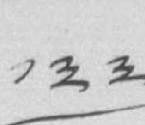༡༣༣
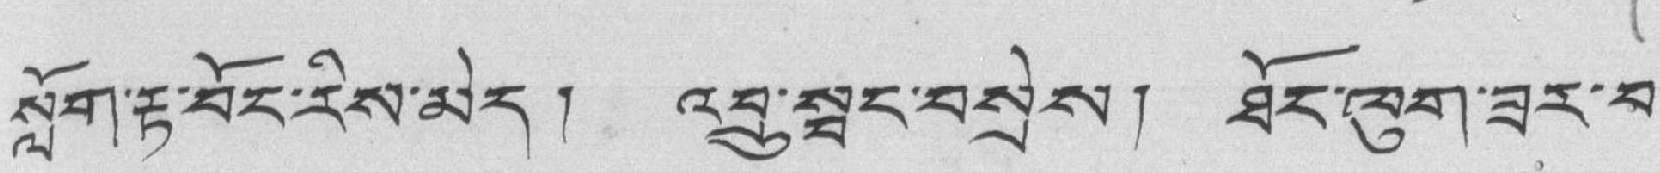སློག་རྟ་བོང་རིས་མེད། འབྲུ་སྦང་བསྲེས། ཐོང་ཁུག་ཟེར་བ་
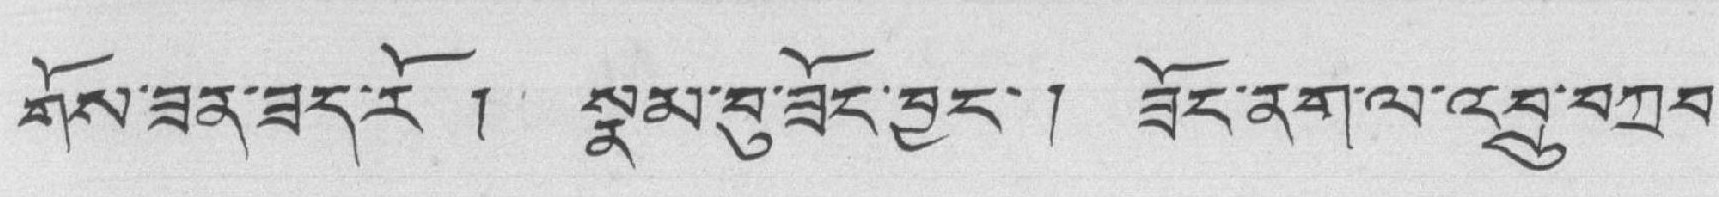གོས་ཟན་ཟད་རོ ། སྣམ་བུ་ཟོང་བྱང་ ། ཟོང་ནག་ལ་འབྲུ་བཀྲབ་
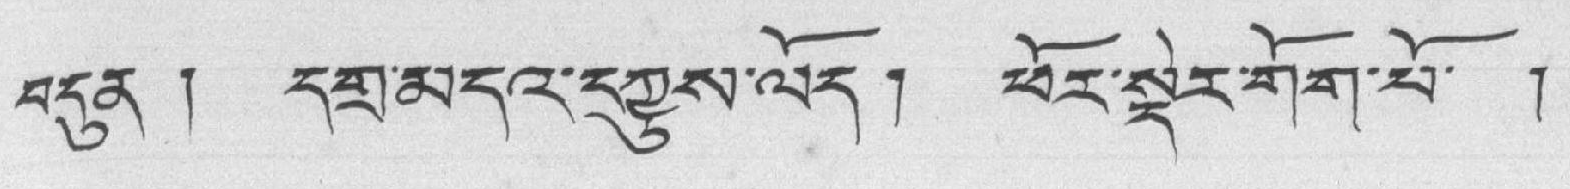བདུན ། དགྲ་མདའ་དཀྱུས་ལོད། ཕོར་སྡེར་གོག་པོ་ །
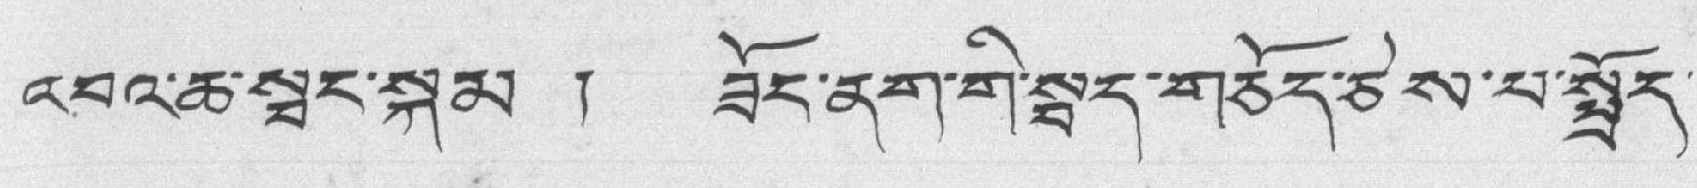འབའ་ཆ་སྦང་སྐམ ། ཟོང་ནག་གི་སྦད་གཅོད་ཅེས་པ་སྤྲོད་
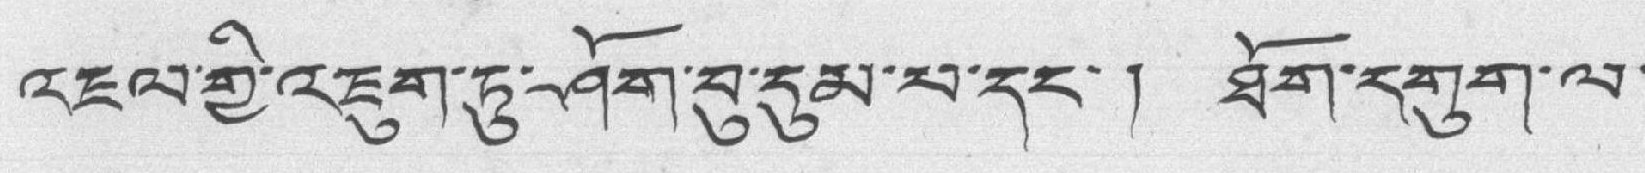འཇལ་གྱི་འཇུག་ཏུ་ཤོག་བུ་དུམ་པ་དང་། ཐོག་དགུག་ལ་
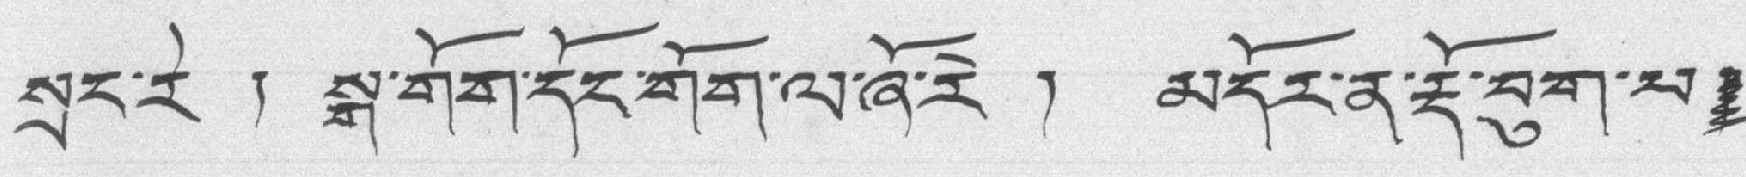སྲང་རེ ། སྒ་གོག་དོང་གོག་ལ་ཞོ་རེ ། མདོར་ན་རྡོ་བུག་པ་།
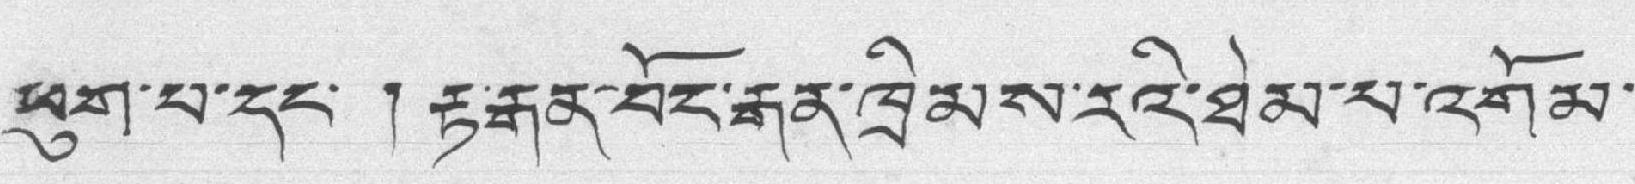ཕུག་པ་དང་ ། རྟ་རྒན་བོང་རྒན་ཁྲིམས་རའི་ཐེམ་པ་འགོམ་
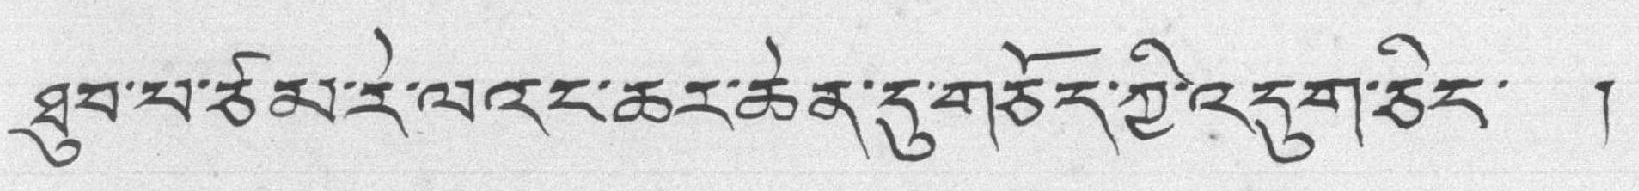ཐུབ་པ་ཙམ་རེ་ལའང་ཆར་ཆེན་དུ་གཅོད་ཀྱི་འདུག་ཅིང་ །
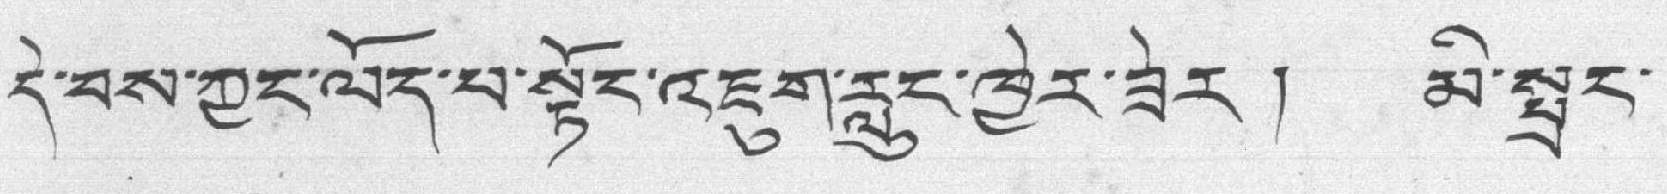དེ་བས་ཀྱང་ལོད་པ་སྟོང་འཇུག་རླུང་ཁྱེར་ཟེར། མི་སྤྲང་
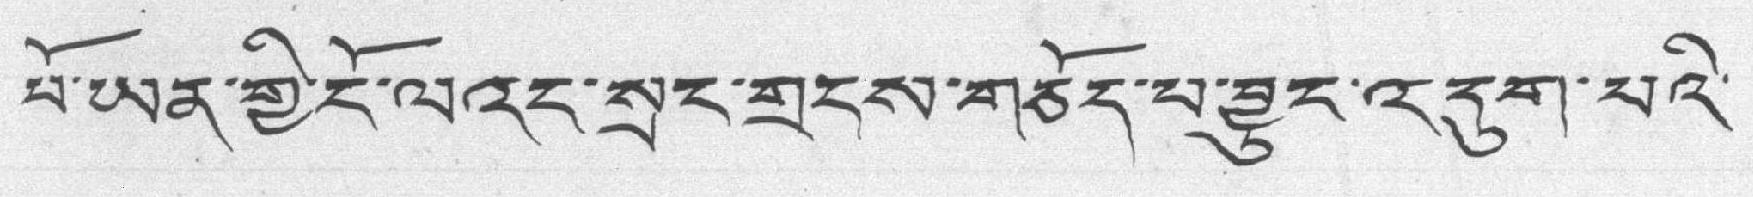པོ་ཡིན་གྱི་ངོ་ལའང་སྲང་གྲངས་གཅོད་པ་བྱུང་འདུག་པའི་
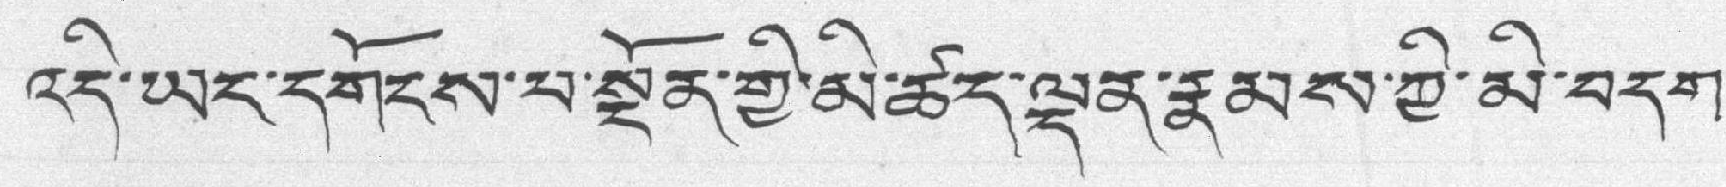འདི་ཡང་དགོངས་པ་སྔོན་གྱི་མི་ཚད་ལྡན་རྣམས་ཀྱི་མི་བདག་
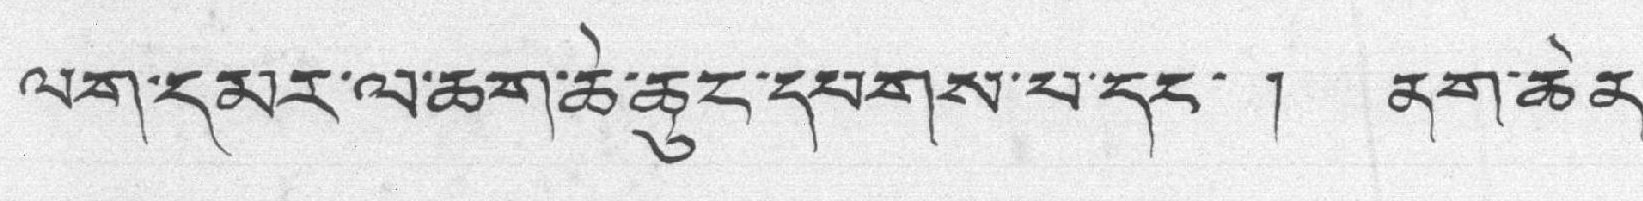ལག་དམར་ལ་ཆག་ཆེ་ཆུང་དཔགས་པ་དང་ ། ནག་ཆེན་
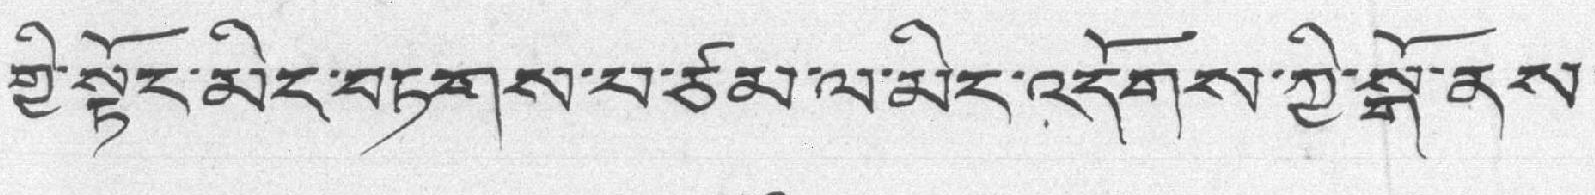གྱི་སྟོང་མིང་བཏགས་པ་ཙམ་ལ་མིང་འདོགས་ཀྱི་སྒོ་ནས་
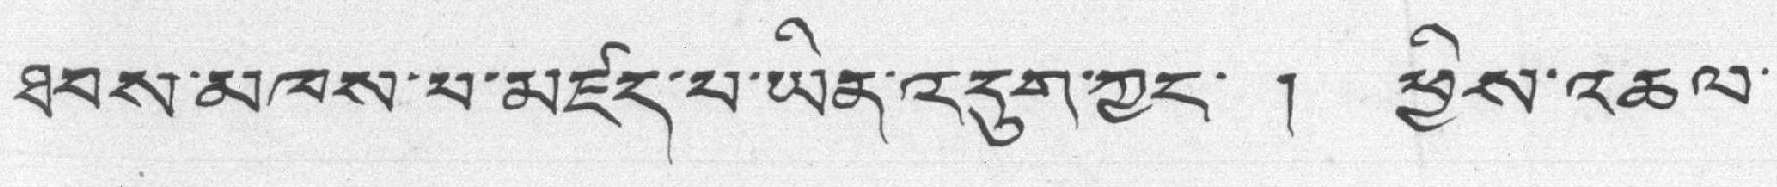ཐབས་མཁས་པ་མཛད་པ་ཡིན་འདུག་ཀྱང་ ། ཕྱིས་འཆལ་
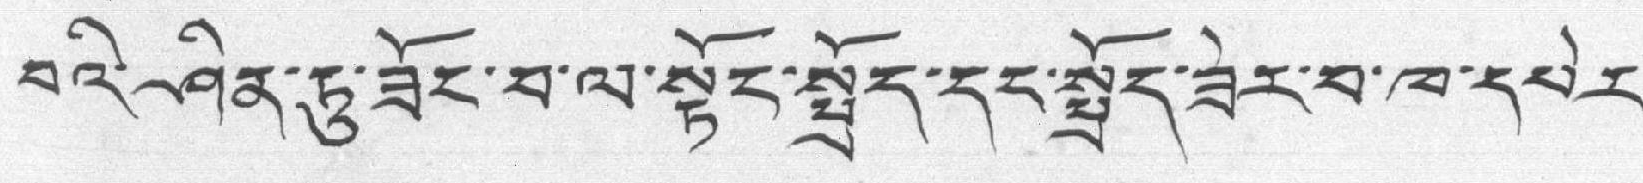བའི་ཤིན་ཏུ་ཟོང་བ་ལ་སྟོང་སྤྲོད་དང་སྤྲོད་ཟེར་བ་ཁ་དཔེར་
